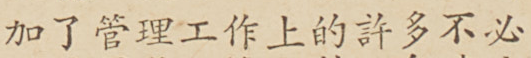加了管理工作上的許多不必
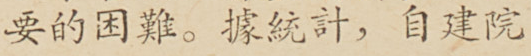要的困難。據統計，自建院
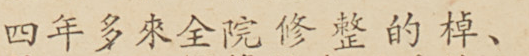四年多來全院修整的棹、
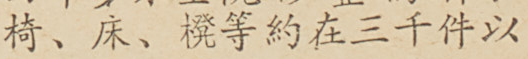椅、床、櫈等約在三千件以
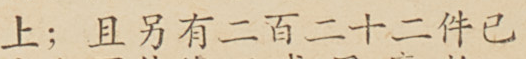上；且另有二百二十二件已
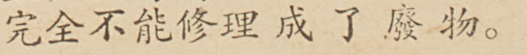完全不能修理成了廢物。
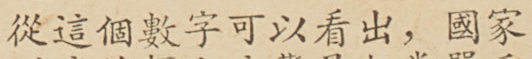從這個數字可以看出，國家
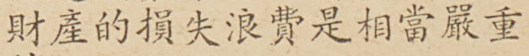財產的損失浪費是相當嚴重
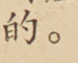的。
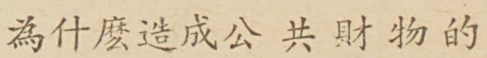為什麼造成公共財物的
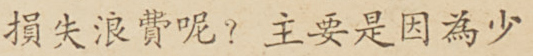損失浪費呢？主要是因為少
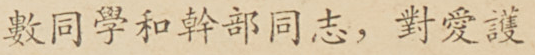數同學和幹部同志，對愛護
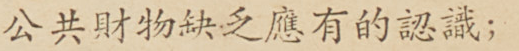公共財物缺乏應有的認識；
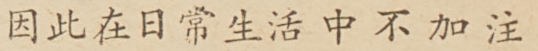因此在日常生活中不加注
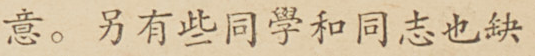意。另有些同學和同志也缺
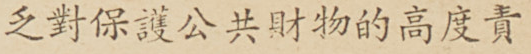乏對保護公共財物的高度責
